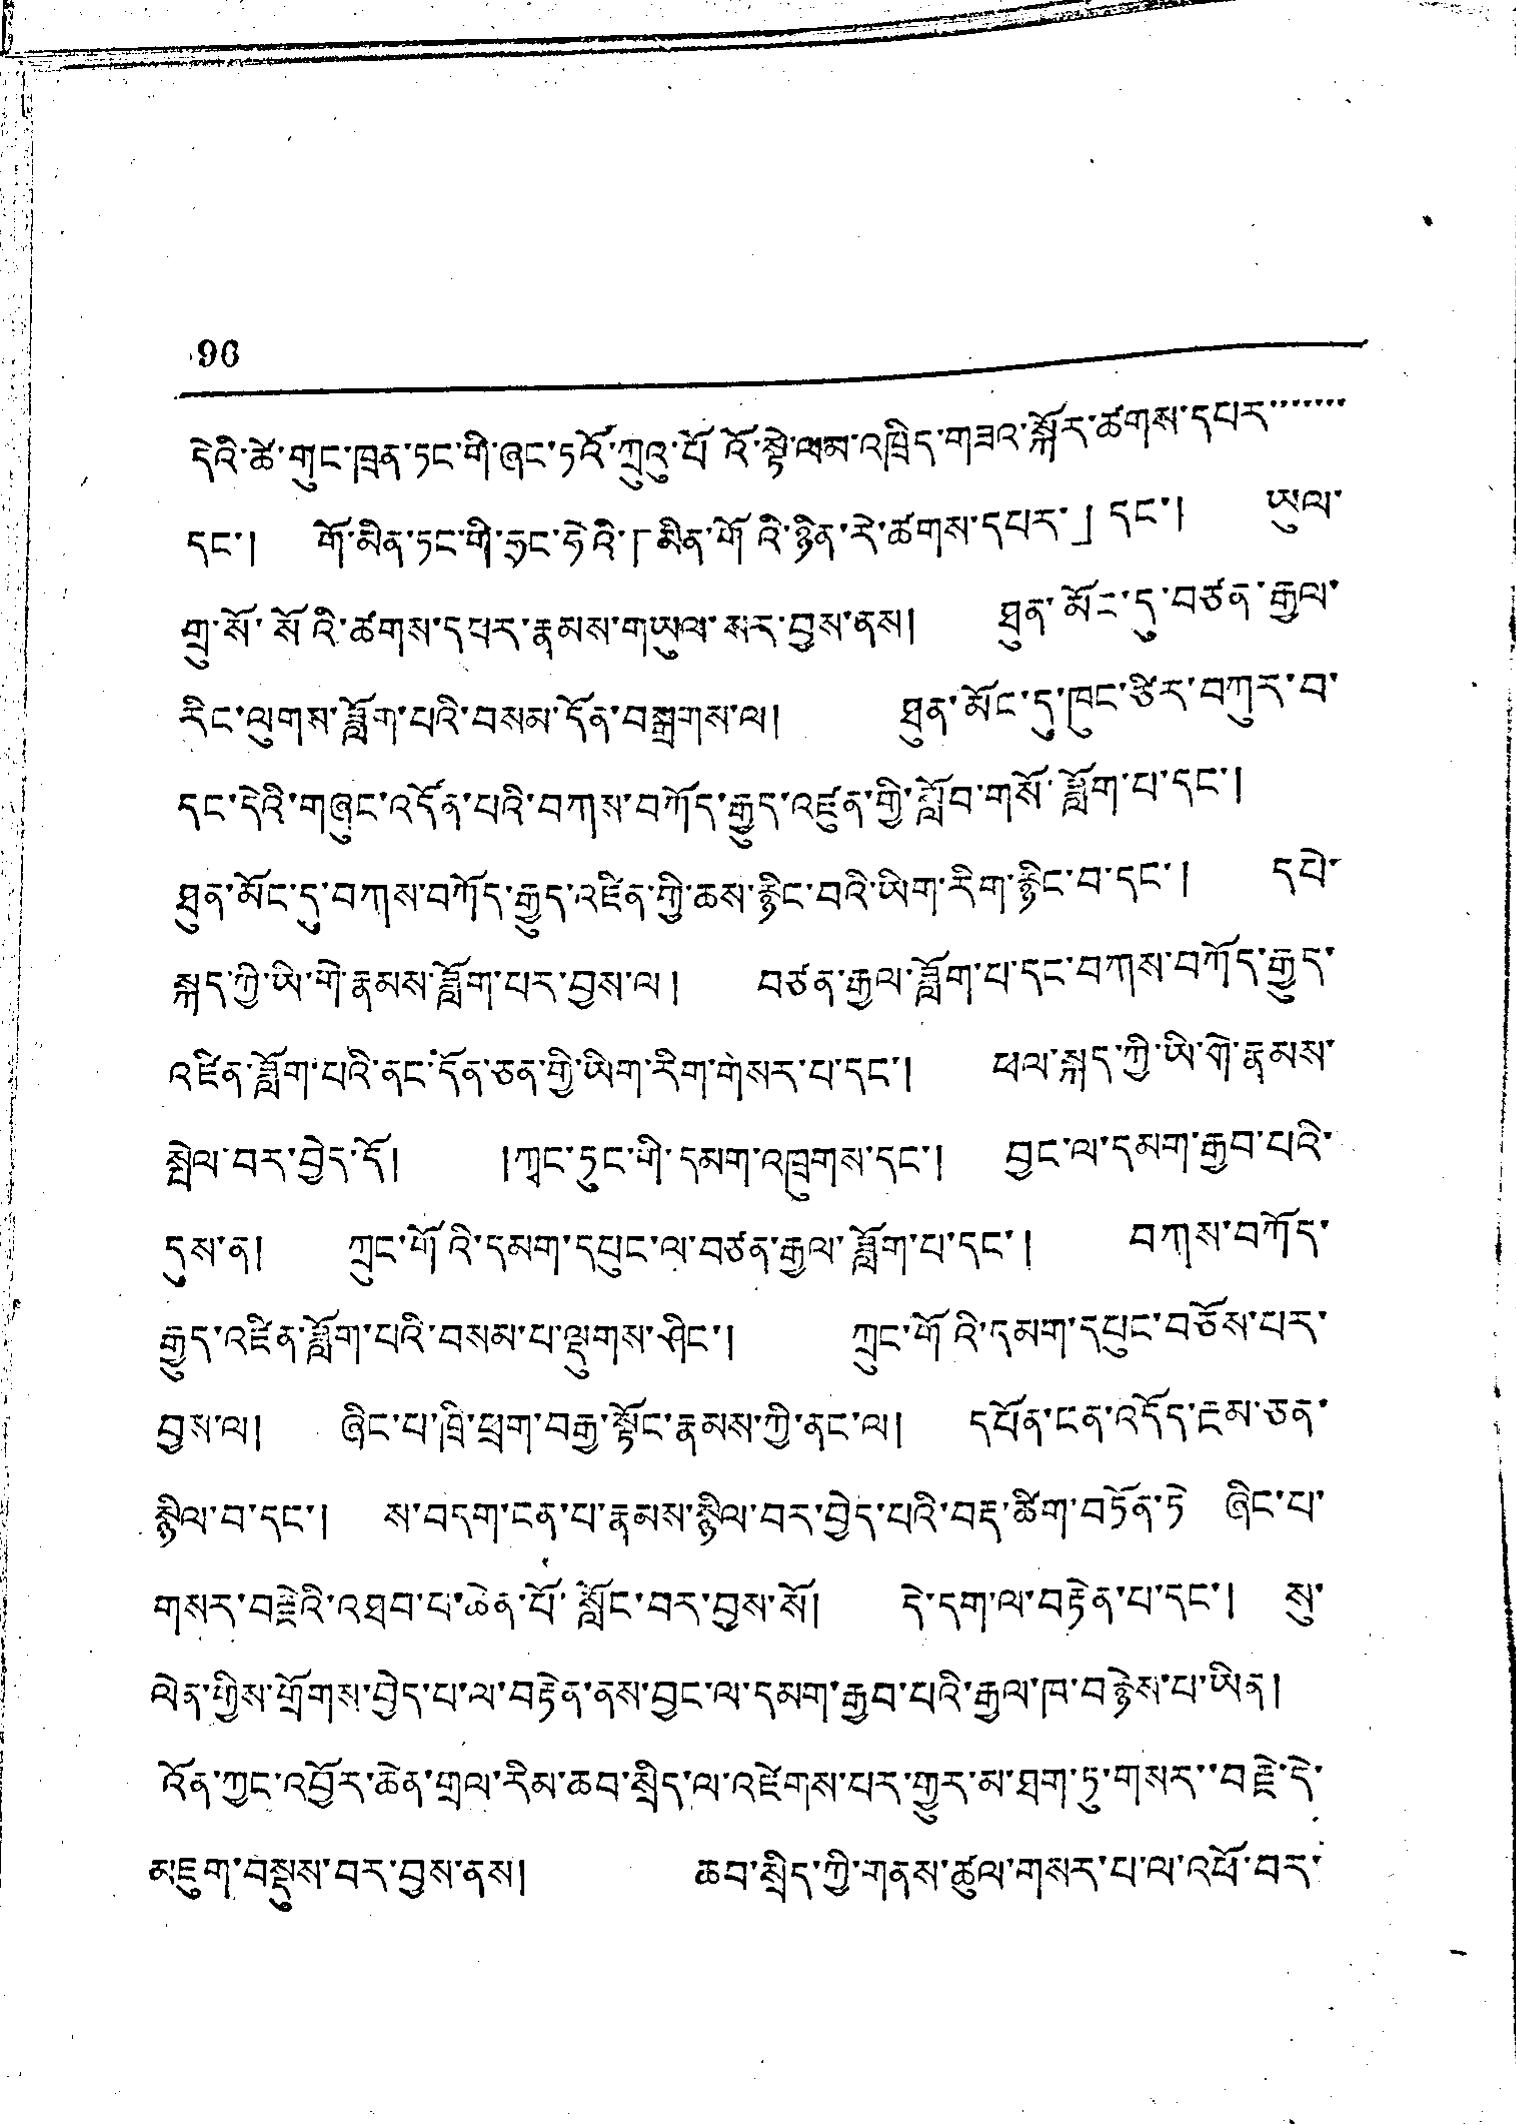96
དེའི་ཚེ་གུང་ཁྲན་ཏང་གི་ཞང་ཏའོ་ཀྲུའུ་པོའོ་སྟེ་ལམ་འཁྲིད་གཟའ་སྐོར་ཚོགས་དཔེར་་་་་་
དང་། གོ་མིན་ཏང་གི་ཧྲང་ཧེའི་「མིན་གོའི་ཉིན་རེ་ཚགས་དཔར་」དང་། ཡུལ་
གྲུ་སོ་སོའི་ཚགས་དཔར་རྣམས་གཡུལ་སར་བྱས་ནས། ཐུན་མོང་དུ་བཅན་རྒྱལ་
རིང་ལུགས་ཟློག་པའི་བསམ་དོན་བསྒྲགས་ལ། ཐུན་མོང་དུ་ཁུང་ཙིར་བཀུར་བ་
དང་དེའི་གཞུང་འདོན་པའི་བཀས་བཀོད་རྒྱུད་འཛུན་གྱི་སློབ་གསོ་ཟློག་པ་དང་།
ཐུན་མོང་དུ་བཀས་བཀོད་རྒྱུད་འཛིན་ཀྱི་ཆས་རྙིང་བའི་ཡིག་རིག་རྙིང་བ་དང་། དཔེ་
སྐད་ཀྱི་ཡི་གེ་རྣམས་ཟློག་པར་བྱས་ལ། བཙན་རྒྱལ་ཟློག་པ་དང་བཀས་བཀོད་རྒྱུད་
འཛིན་ཟློག་པའི་ནང་དོན་ཅན་གྱི་ཡིག་རིག་གེསར་པ་དང་། ཕལ་སྐད་ཀྱི་ཡི་གེ་རྣམས་
སྤེལ་བར་བྱེད་དོ། །ཀྭང་ཏུང་གི་དམག་འཁྲུགས་དང་། བྱང་ལ་དམག་རྒྱབ་པའི་
དུས་ན། ཀྲུང་གོའི་དམག་དཔུང་ལ་བཙན་རྒྱལ་ཟློག་པ་དང་། བཀས་བཀོད་
རྒྱུད་འཛིན་ཟློག་པའི་བསམ་པ་ལྡུགས་ཤིང་། ཀྲུང་གོའི་དམག་དཔུང་བཅོས་པར་
བྱས་ལ། ཞིང་པ་ཁྲི་ཕྲག་བརྒྱ་སྟོང་རྣམས་ཀྱི་ནང་ལ། དཔོན་ངན་འདོད་རྔམ་ཅན་
སྙིལ་བ་དང་། ས་བདག་ངན་པ་རྣམས་སྙིལ་བར་བྱེད་པའི་བརྡ་ཚིག་བཏོན་ཏེ ཞིང་པ་
གསར་བརྗེའི་འཐབ་པ་ཆེན་པོ་སློང་བར་བྱས་སོ། དེ་དག་ལ་བརྟེན་པ་དང་། སུ་
ལེན་གྱིས་གྲོགས་བྱེད་པ་ལ་བརྟེན་ནས་བྱང་ལ་དམག་རྒྱབ་པའི་རྒྱལ་ཁ་བརྙེས་པ་ཡིན།
འོན་ཀྱང་འབྱོར་ཆེན་གྲལ་རིམ་ཆབ་སྲིད་ལ་འཛེགས་པར་གྱུར་མ་ཐག་ཏུ་གསར་་བརྗེ་དེ་
མཇུག་བསྡུས་བར་བྱས་ནས། ཆབ་སྲིད་ཀྱི་གནས་ཚུལ་གསར་པ་ལ་འཕོ་བར་
